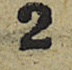2
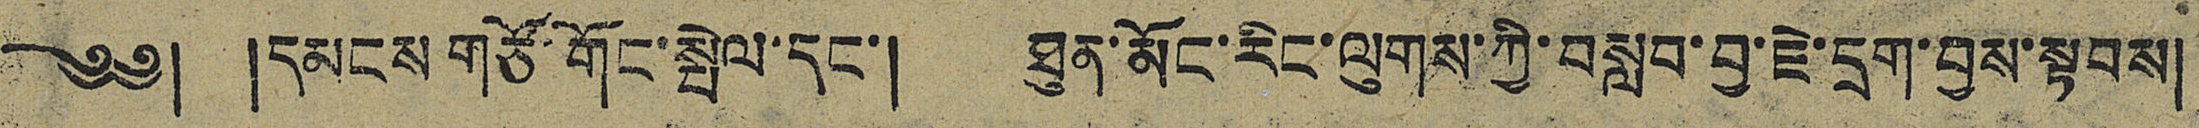༄༅། །དམངས་གཙོ་གོང་སྤེལ་དང་། ཐུན་མོང་རིང་ལུགས་ཀྱི་བསླབ་བྱ་ཇེ་དྲག་བྱས་སྟབས།
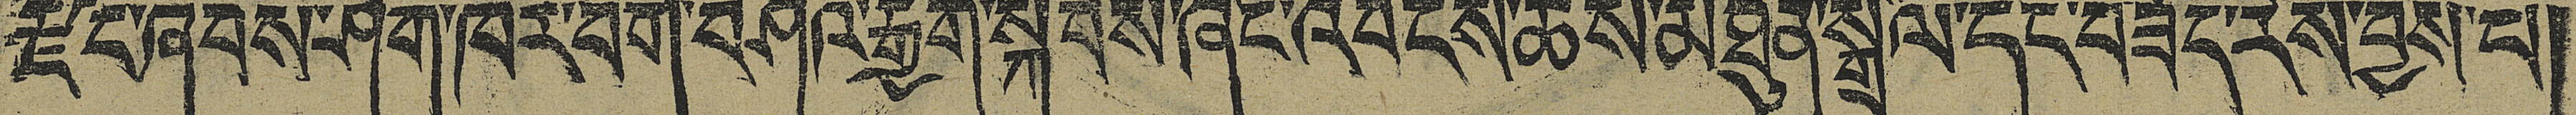རྫོང་ཞབས་ཤོག་ཁར་བགོ་བཤའ་རྒྱག་སྐབས་ཞིང་འབངས་ཚོས་མཐུན་སྒྲིལ་དང་བཟོད་རེས་བྱས་པ།
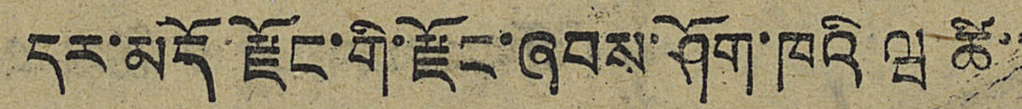དར་མདོ་རྫོང་གི་རྫོང་ཞབས་ཤོག་ཁའི་ཝ ཚི་་
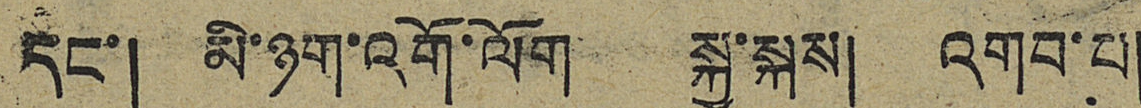དང་། མི་ཉག་འགོ་ལོག སྐྱ་སྐས། འགབ་པ།
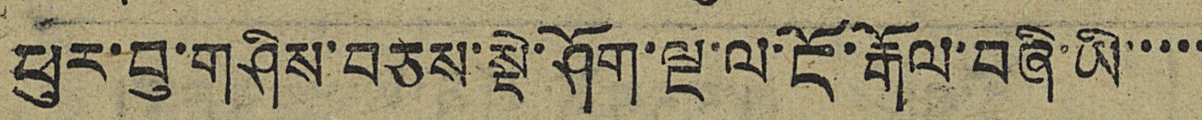ཕུར་བུ་གཤིས་བཅས་སྡེ་ཤོག་ལྔ་ལ་ངོ་རྒོལ་བཞི་ཡི་་་་་
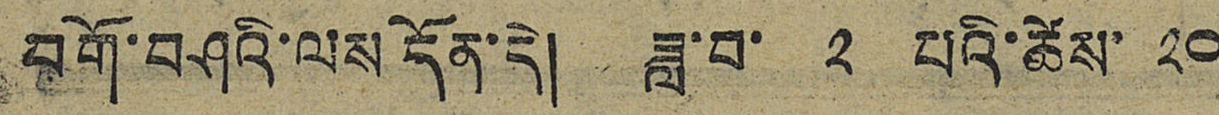བགོ་བཤའི་ལས དོན་དེ། ཟླ་བ་ ༢ པའི་ཚེས་ ༢༠
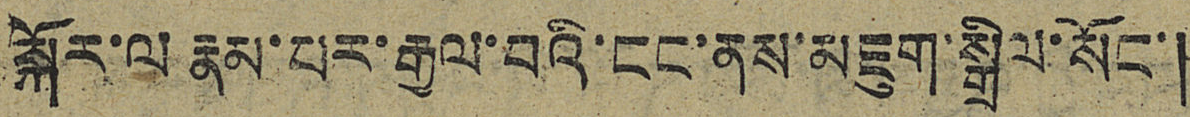སྐོར་ལ རྣམ་པར་རྒྱལ་བའི་ངང་ནས་མཇུག་སྒྲིལ་སོང་།
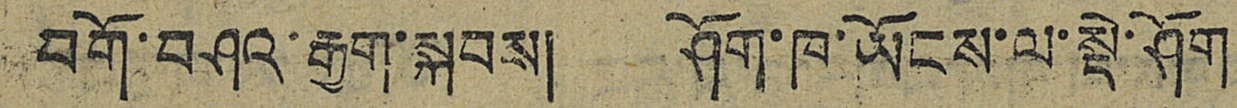བགོ་བཤའ་རྒྱག་སྐབས། ཤོག་ཁ་ཡོངས་སྡེ་ཤོག
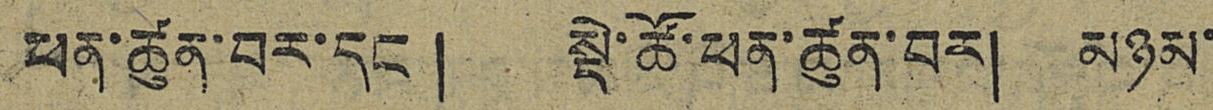ཕན་ཚུན་བར་དང་། སྡེ་ཚོ་ཕན་ཚུན་བར། མཉམ་
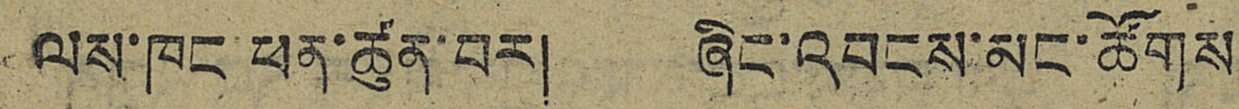ལས་ཁང ཕན་ཚུན་བར། ཞིང་འབངས་མང་ཚོགས
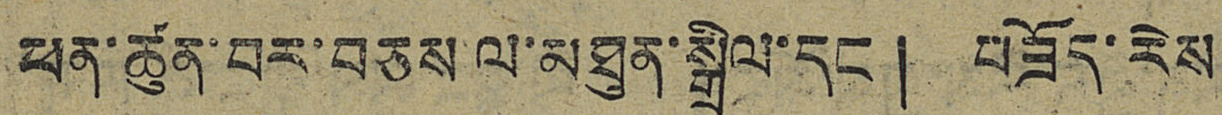ཕན་ཚུན་བར་བཅས ལ་མཐུན་སྒྲིལ་དང ། བཟོད་རེས
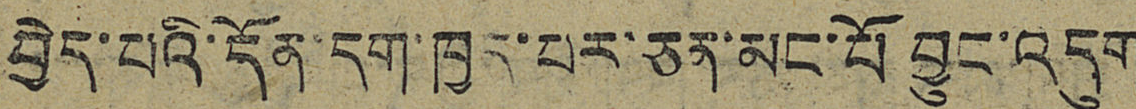བྱེད་པའི་དོན་དག་ཁྱད་པར་ཅན་མང་པོ བྱུང་འདུག
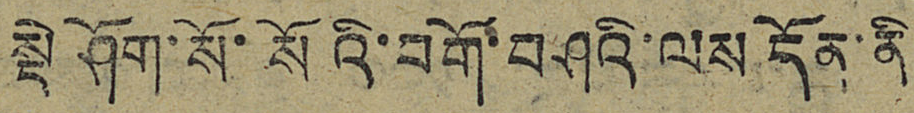སྡེ ཤོག་སོ་སོའི་བགོ་བཤའི་ལས དོན་ནི།
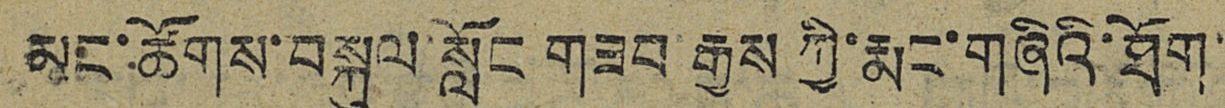མང་ཚོགས་བསྐུལ་སློང་གཟབ རྒྱས ཀྱི་རྨང་གཞིའི་ཐོག་
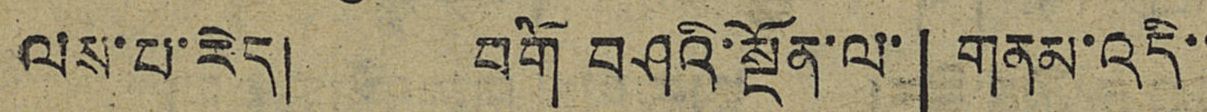ལས་པ་རེད། བགོ བཤའི་སྔོན་ལ་「གནམ་འདི་་
